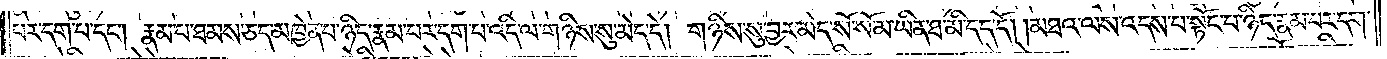པར་དག་པ་དང༌། རྣམ་པ་ཐམས་ཅད་མཁྱེན་པ་ཉིད་རྣམ་པར་དག་པ་འདི་ལ་གཉིས་སུ་མེད་དེ། གཉིས་སུ་བྱར་མེད་སོ་སོ་མ་ཡིན་ཐ་མི་དད་དོ། །མཐའ་ལས་འདས་པ་སྟོང་པ་ཉིད་རྣམ་པར་དག་
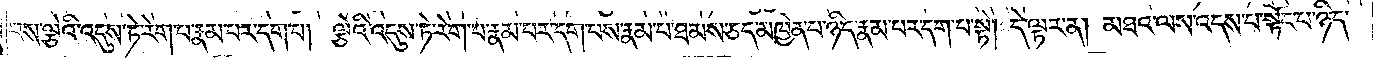པས་ལྕེའི་འདུས་ཏེ་རེག་པ་རྣམ་པར་དག་པ། ལྕེའི་འདུས་ཏེ་རེག་པ་རྣམ་པར་དག་པས་རྣམ་པ་ཐམས་ཅད་མཁྱེན་པ་ཉིད་རྣམ་པར་དག་པ་སྟེ། དེ་ལྟར་ན། མཐའ་ལས་འདས་པ་སྟོང་པ་ཉིད་
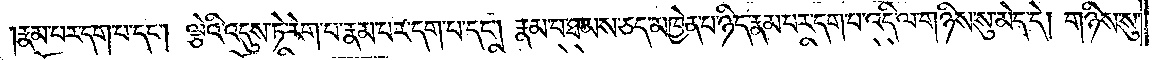རྣམ་པར་དག་པ་དང༌། ལྕེའི་འདུས་ཏེ་རེག་པ་རྣམ་པར་དག་པ་དང༌། རྣམ་པ་ཐམས་ཅད་མཁྱེན་པ་ཉིད་རྣམ་པར་དག་པ་འདི་ལ་གཉིས་སུ་མེད་དེ། གཉིས་སུ་
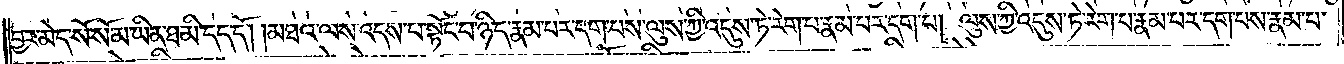བྱར་མེད་སོ་སོ་མ་ཡིན་ཐ་མི་དད་དོ། །མཐའ་ལས་འདས་པ་སྟོང་པ་ཉིད་རྣམ་པར་དག་པས་ལུས་ཀྱི་འདུས་ཏེ་རེག་པ་རྣམ་པར་དག་པ། ལུས་ཀྱི་འདུས་ཏེ་རེག་པ་རྣམ་པར་དག་པས་རྣམ་པ་
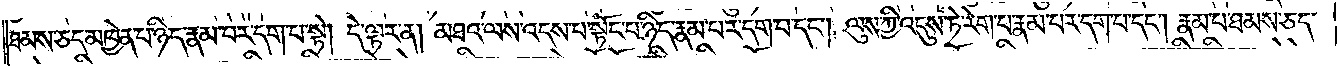ཐམས་ཅད་མཁྱེན་པ་ཉིད་རྣམ་པར་དག་པ་སྟེ། དེ་ལྟར་ན། མཐའ་ལས་འདས་པ་སྟོང་པ་ཉིད་རྣམ་པར་དག་པ་དང༌། ལུས་ཀྱི་འདུས་ཏེ་རེག་པ་རྣམ་པར་དག་པ་དང༌། རྣམ་པ་ཐམས་ཅད་
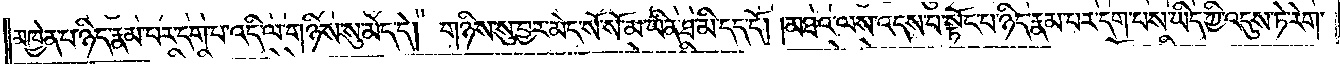མཁྱེན་པ་ཉིད་རྣམ་པར་དག་པ་འདི་ལ་གཉིས་སུ་མེད་དེ། གཉིས་སུ་བྱར་མེད་སོ་སོ་མ་ཡིན་ཐ་མི་དད་དོ། །མཐའ་ལས་འདས་པ་སྟོང་པ་ཉིད་རྣམ་པར་དག་པས་ཡིད་ཀྱི་འདུས་ཏེ་རེག་
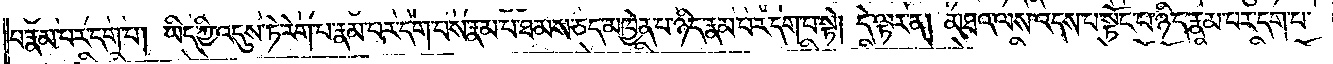པ་རྣམ་པར་དག་པ། ཡིད་ཀྱི་འདུས་ཏེ་རེག་པ་རྣམ་པར་དག་པས་རྣམ་པ་ཐམས་ཅད་མཁྱེན་པ་ཉིད་རྣམ་པར་དག་པ་སྟེ། དེ་ལྟར་ན། མཐའ་ལས་འདས་པ་སྟོང་པ་ཉིད་རྣམ་པར་དག་པ་
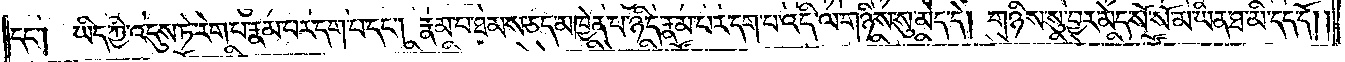དང༌། ཡིད་ཀྱི་འདུས་ཏེ་རེག་པ་རྣམ་པར་དག་པ་དང༌། རྣམ་པ་ཐམས་ཅད་མཁྱེན་པ་ཉིད་རྣམ་པར་དག་པ་འདི་ལ་གཉིས་སུ་མེད་དེ། གཉིས་སུ་བྱར་མེད་སོ་སོ་མ་ཡིན་ཐ་མི་དད་དོ། །
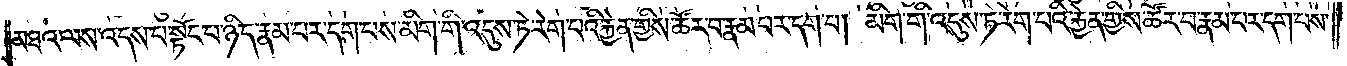མཐའ་ལས་འདས་པ་སྟོང་པ་ཉིད་རྣམ་པར་དག་པས་མིག་གི་འདུས་ཏེ་རེག་པའི་རྐྱེན་གྱིས་ཚོར་བ་རྣམ་པར་དག་པ། མིག་གི་འདུས་ཏེ་རེག་པའི་རྐྱེན་གྱིས་ཚོར་བ་རྣམ་པར་དག་པས་
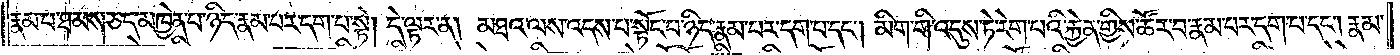རྣམ་པ་ཐམས་ཅད་མཁྱེན་པ་ཉིད་རྣམ་པར་དག་པ་སྟེ། དེ་ལྟར་ན། མཐའ་ལས་འདས་པ་སྟོང་པ་ཉིད་རྣམ་པར་དག་པ་དང༌། མིག་གི་འདུས་ཏེ་རེག་པའི་རྐྱེན་གྱིས་ཚོར་བ་རྣམ་པར་དག་པ་དང༌། རྣམ་
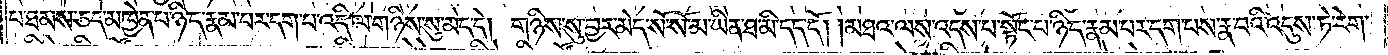པ་ཐམས་ཅད་མཁྱེན་པ་ཉིད་རྣམ་པར་དག་པ་འདི་ལ་གཉིས་སུ་མེད་དེ། གཉིས་སུ་བྱར་མེད་སོ་སོ་མ་ཡིན་ཐ་མི་དད་དོ། །མཐའ་ལས་འདས་པ་སྟོང་པ་ཉིད་རྣམ་པར་དག་པས་རྣ་བའི་འདུས་ཏེ་རེག་
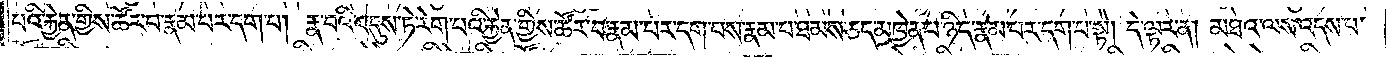པའི་རྐྱེན་གྱིས་ཚོར་བ་རྣམ་པར་དག་པ། རྣ་བའི་འདུས་ཏེ་རེག་པའི་རྐྱེན་གྱིས་ཚོར་བ་རྣམ་པར་དག་པས་རྣམ་པ་ཐམས་ཅད་མཁྱེན་པ་ཉིད་རྣམ་པར་དག་པ་སྟེ། དེ་ལྟར་ན། མཐའ་ལས་འདས་པ་
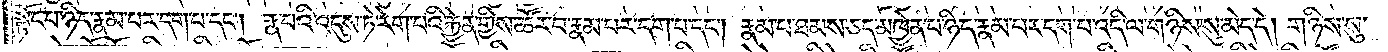སྟོང་པ་ཉིད་རྣམ་པར་དག་པ་དང༌། རྣ་བའི་འདུས་ཏེ་རེག་པའི་རྐྱེན་གྱིས་ཚོར་བ་རྣམ་པར་དག་པ་དང༌། རྣམ་པ་ཐམས་ཅད་མཁྱེན་པ་ཉིད་རྣམ་པར་དག་པ་འདི་ལ་གཉིས་སུ་མེད་དེ། གཉིས་སུ་
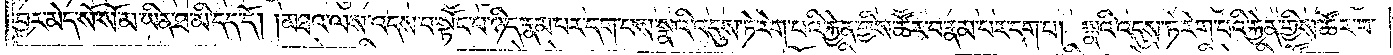བྱར་མེད་སོ་སོ་མ་ཡིན་ཐ་མི་དད་དོ། །མཐའ་ལས་འདས་པ་སྟོང་པ་ཉིད་རྣམ་པར་དག་པས་སྣའི་འདུས་ཏེ་རེག་པའི་རྐྱེན་གྱིས་ཚོར་བ་རྣམ་པར་དག་པ། སྣའི་འདུས་ཏེ་རེག་པའི་རྐྱེན་གྱིས་ཚོར་བ་
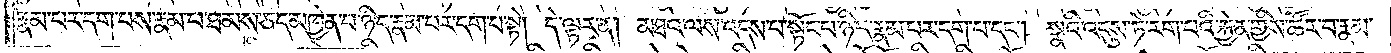རྣམ་པར་དག་པས་རྣམ་པ་ཐམས་ཅད་མཁྱེན་པ་ཉིད་རྣམ་པར་དག་པ་སྟེ། དེ་ལྟར་ན། མཐའ་ལས་འདས་པ་སྟོང་པ་ཉིད་རྣམ་པར་དག་པ་དང༌། སྣའི་འདུས་ཏེ་རེག་པའི་རྐྱེན་གྱིས་ཚོར་བ་རྣམ་
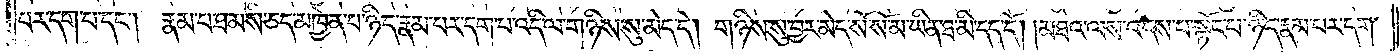པར་དག་པ་དང༌། རྣམ་པ་ཐམས་ཅད་མཁྱེན་པ་ཉིད་རྣམ་པར་དག་པ་འདི་ལ་གཉིས་སུ་མེད་དེ། གཉིས་སུ་བྱར་མེད་སོ་སོ་མ་ཡིན་ཐ་མི་དད་དོ། །མཐའ་ལས་འདས་པ་སྟོང་པ་ཉིད་རྣམ་པར་དག་
